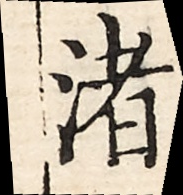渚
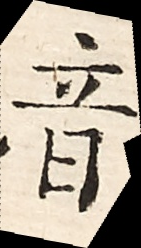音
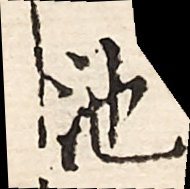池
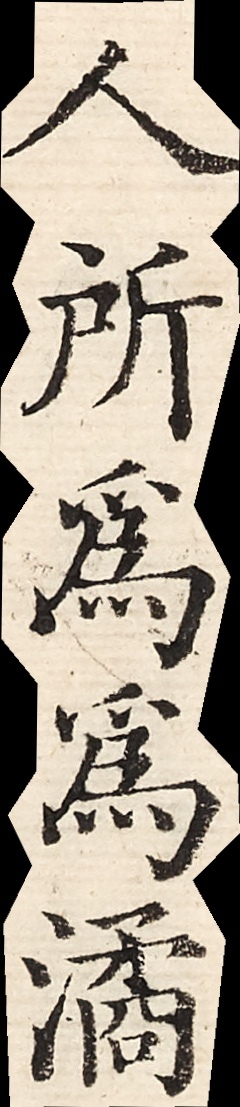人所為為潏
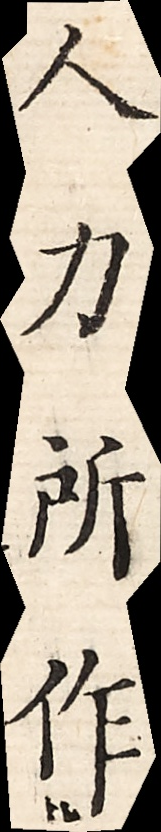人力所作
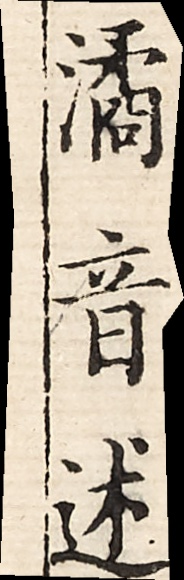潏音述
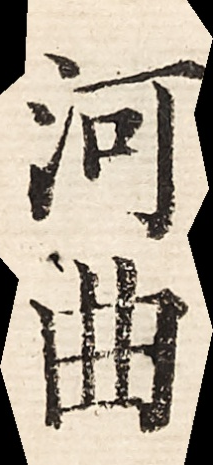河曲
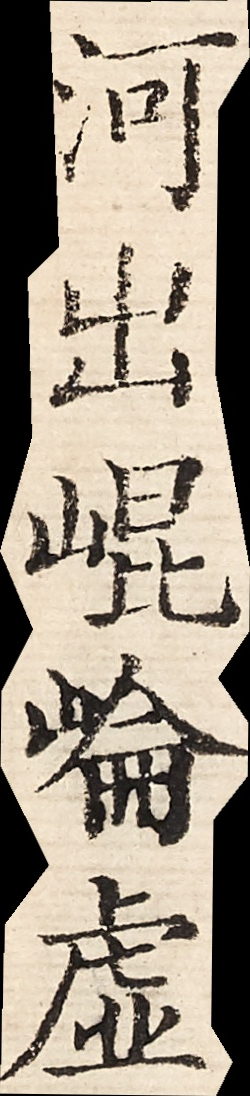河出昆侖虛
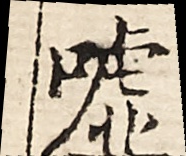虛
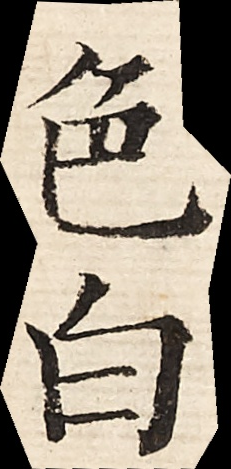色白
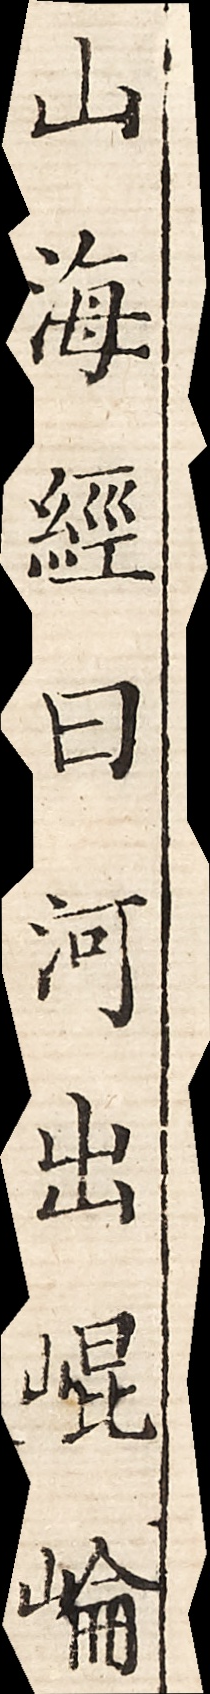山海經曰河出昆侖
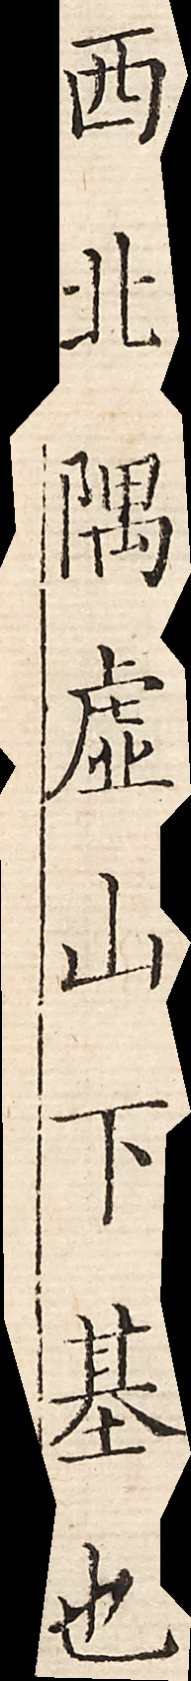西北隅虛山下基也
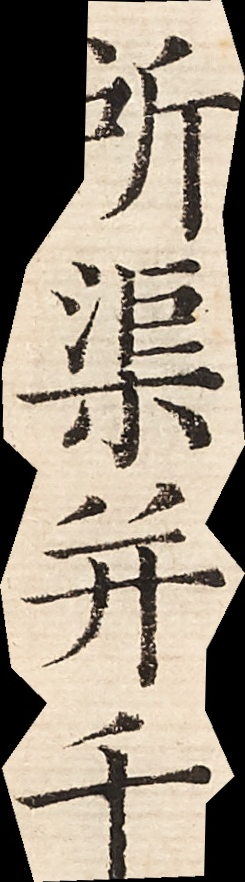所渠並千
